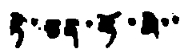ཏེ་ཅན་ཧོ་མི་་་
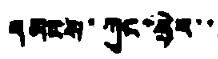དམངས་ཀུང་ཧྲེར་་
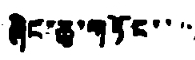ཞིང་ཆུ་གཏོང་་་་་
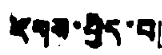རོགས་བྱེད་པ།
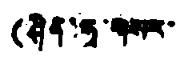(ཤིན་ཧྭ་གསར་
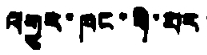འགྱུར་ཁང་ཞི་པར་
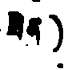ཟིན)
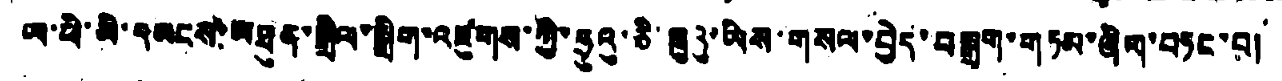ཡ་ཕི་མི་དམངས་མཐུན་སྒྲིལ་སྒྲིག་འཛུགས་ཀྱི་ཧྲུའུ་ཅི་ཁྲུའུ་ཡིས་གསལ་བྱེད་བསྒྲག་གཏམ་ཞིག་བཏང་བ།
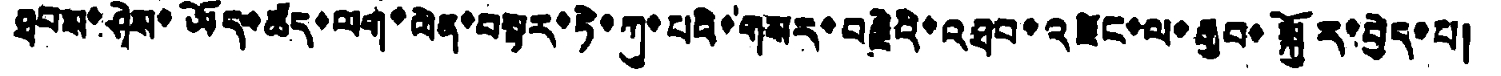ཐབས་ཤེས་ཡོད་ཚད་ལག་ལེན་བསྟར་ཏེ་ཀུ་པའི་གསར་བརྗིའི་འཐབ་འཛིང་ལ་རྒྱབ་སྐྱོར་བྱེད་པ།
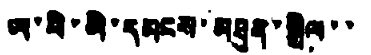ཡ་ཕི་མི་དམངས་མཐུན་སྒྲིལ་་
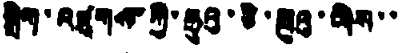སྒྲིག་འཛུགས་ཀྱི་ཧྲུའུ་ཅི་ཁྲུའུ་ཡིས་་
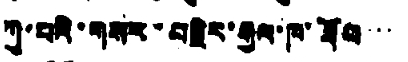ཀུ་པའི་གསར་བརྗེར་རྒྱལ་ཁ་ཐོབ་་་
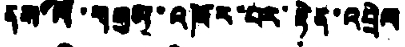ནས་ལོ་གསུམ་འཁོར་བར་རྟེན་འབྲེལ
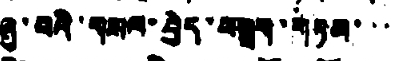ཞུ་བའི་གསལ་བྱེད་བསྒྲག་གཏམ་་་
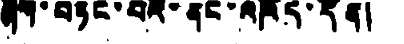ཞིག་བཏང་བའི་ནང་འཁོད་དོན།
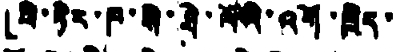「ཕི་ཏེར་ཁ་སེ་ཐེ་ལོའི་འགོ་ཁྲིད་
